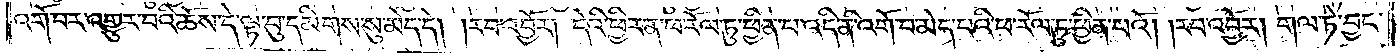འགོ་བར་འགྱུར་བའི་ཆོས་དེ་ལྟ་བུ་དམིགས་སུ་མེད་དོ། །རབ་འབྱོར། དེའི་ཕྱིར་ན་ཕ་རོལ་ཏུ་ཕྱིན་པ་འདི་ནི་འགོ་བ་མེད་པའི་ཕ་རོལ་ཏུ་ཕྱིན་པའོ། །རབ་འབྱོར། གལ་ཏེ་བྱང་
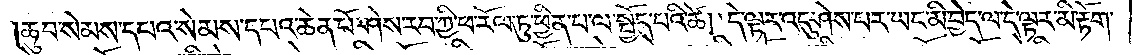ཆུབ་སེམས་དཔའ་སེམས་དཔའ་ཆེན་པོ་ཤེས་རབ་ཀྱི་ཕ་རོལ་ཏུ་ཕྱིན་པ་ལ་སྤྱོད་པའི་ཚེ། དེ་ལྟར་འདུ་ཤེས་པར་ཡང་མི་བྱེད་ལ་དེ་ལྟར་མི་རྟོག་
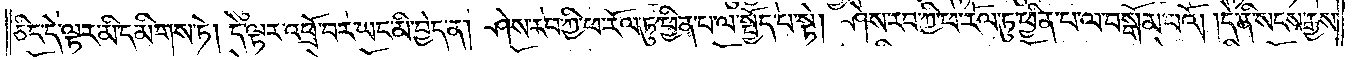ཅིང་དེ་ལྟར་མི་དམིགས་ཏེ། དེ་ལྟར་འཕྲོ་བར་ཡང་མི་བྱེད་ན། ཤེས་རབ་ཀྱི་ཕ་རོལ་ཏུ་ཕྱིན་པ་ལ་སྤྱོད་པ་སྟེ། ཤེས་རབ་ཀྱི་ཕ་རོལ་ཏུ་ཕྱིན་པ་ལ་བསྒོམ་པའོ། །དེ་ནི་སངས་རྒྱས་
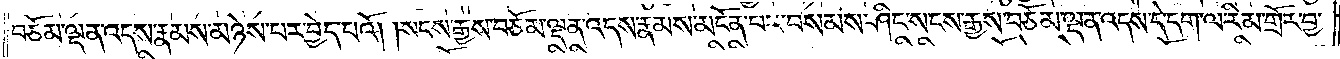བཅོམ་ལྡན་འདས་རྣམས་མཉེས་པར་བྱེད་པའོ། །སངས་རྒྱས་བཅོམ་ལྡན་འདས་རྣམས་མངོན་པར་བསམས་ཤིང་སངས་རྒྱས་བཅོམ་ལྡན་འདས་དེ་དག་ལ་རིམ་གྲོར་བྱ་
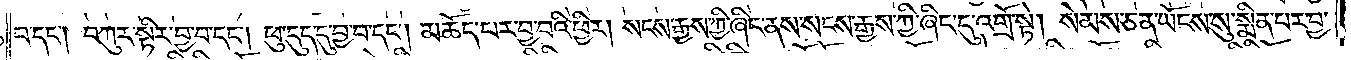བ་དང༌། བཀུར་སྟིར་བྱ་བ་དང༌། ཕུ་དུད་དུ་བྱ་བ་དང༌། མཆོད་པར་བྱ་བའི་ཕྱིར། སངས་རྒྱས་ཀྱི་ཞིང་ནས་སངས་རྒྱས་ཀྱི་ཞིང་དུ་འགྲོ་སྟེ། སེམས་ཅན་ཡོངས་སུ་སྨིན་པར་བྱ་
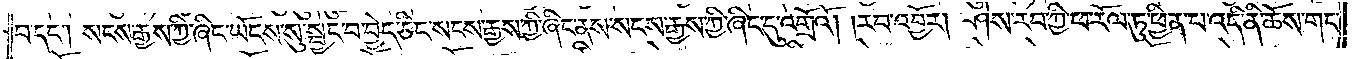བ་དང༌། སངས་རྒྱས་ཀྱི་ཞིང་ཡོངས་སུ་སྦྱང་བ་བྱེད་ཅིང་སངས་རྒྱས་ཀྱི་ཞིང་ནས་སངས་རྒྱས་ཀྱི་ཞིང་དུ་འགྲོའོ། །རབ་འབྱོར། ཤེས་རབ་ཀྱི་ཕ་རོལ་ཏུ་ཕྱིན་པ་འདི་ནི་ཆོས་གང་
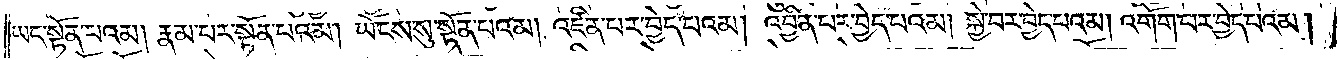ཡང་སྟོན་པའམ། རྣམ་པར་སྟོན་པའམ། ཡོངས་སུ་སྟོན་པའམ། འཛིན་པར་བྱེད་པའམ། འབྱིན་པར་བྱེད་པའམ། སྐྱེ་བར་བྱེད་པའམ། འགོག་པར་བྱེད་པའམ།
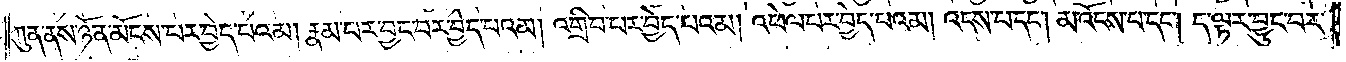ཀུན་ནས་ཉོན་མོངས་པར་བྱེད་པའམ། རྣམ་པར་བྱང་བར་བྱེད་པའམ། འགྲིབ་པར་བྱེད་པའམ། འཕེལ་བར་བྱེད་པའམ། འདས་པ་དང༌། མ་འོངས་པ་དང༌། ད་ལྟར་བྱུང་བར་
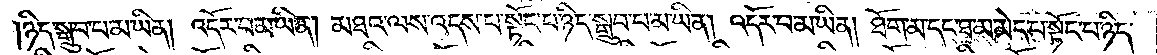ཉིད་སྒྲུབ་པ་མ་ཡིན། འདོར་བ་མ་ཡིན། མཐའ་ལས་འདས་པ་སྟོང་པ་ཉིད་སྒྲུབ་པ་མ་ཡིན། འདོར་བ་མ་ཡིན། ཐོག་མ་དང་ཐ་མ་མེད་པ་སྟོང་པ་ཉིད་
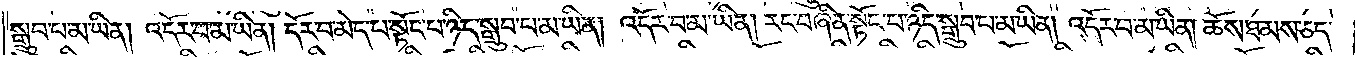སྒྲུབ་པ་མ་ཡིན། འདོར་བ་མ་ཡིན། དོར་བ་མེད་པ་སྟོང་པ་ཉིད་སྒྲུབ་པ་མ་ཡིན། འདོར་བ་མ་ཡིན། རང་བཞིན་སྟོང་པ་ཉིད་སྒྲུབ་པ་མ་ཡིན། འདོར་བ་མ་ཡིན། ཆོས་ཐམས་ཅད་
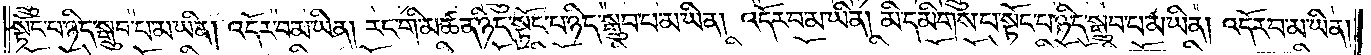སྟོང་པ་ཉིད་སྒྲུབ་པ་མ་ཡིན། འདོར་བ་མ་ཡིན། རང་གི་མཚན་ཉིད་སྟོང་པ་ཉིད་སྒྲུབ་པ་མ་ཡིན། འདོར་བ་མ་ཡིན། མི་དམིགས་པ་སྟོང་པ་ཉིད་སྒྲུབ་པ་མ་ཡིན། འདོར་བ་མ་ཡིན།
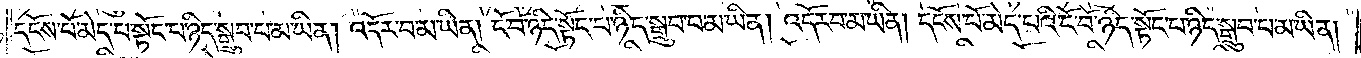དངོས་པོ་མེད་པ་སྟོང་པ་ཉིད་སྒྲུབ་པ་མ་ཡིན། འདོར་བ་མ་ཡིན། ངོ་བོ་ཉིད་སྟོང་པ་ཉིད་སྒྲུབ་པ་མ་ཡིན། འདོར་བ་མ་ཡིན། དངོས་པོ་མེད་པའི་ངོ་བོ་ཉིད་སྟོང་པ་ཉིད་སྒྲུབ་པ་མ་ཡིན།
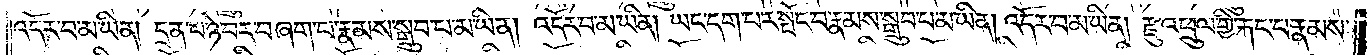འདོར་བ་མ་ཡིན། དྲན་པ་ཉེ་བར་བཞག་པ་རྣམས་སྒྲུབ་པ་མ་ཡིན། འདོར་བ་མ་ཡིན། ཡང་དག་པར་སྤོང་བ་རྣམས་སྒྲུབ་པ་མ་ཡིན། འདོར་བ་མ་ཡིན། རྫུ་འཕྲུལ་གྱི་རྐང་པ་རྣམས་
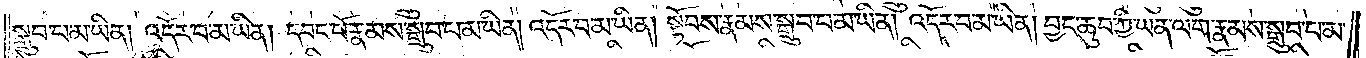སྒྲུབ་པ་མ་ཡིན། འདོར་བ་མ་ཡིན། དབང་པོ་རྣམས་སྒྲུབ་པ་མ་ཡིན། འདོར་བ་མ་ཡིན། སྟོབས་རྣམས་སྒྲུབ་པ་མ་ཡིན། འདོར་བ་མ་ཡིན། བྱང་ཆུབ་ཀྱི་ཡན་ལག་རྣམས་སྒྲུབ་པ་མ་
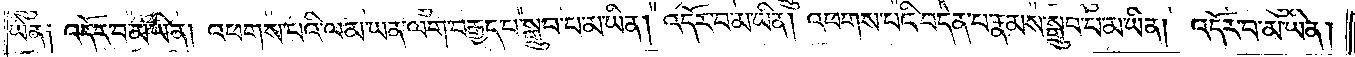ཡིན༑ འདོར་བ་མ་ཡིན། འཕགས་པའི་ལམ་ཡན་ལག་བརྒྱད་པ་སྒྲུབ་པ་མ་ཡིན། འདོར་བ་མ་ཡིན། འཕགས་པའི་བདེན་པ་རྣམས་སྒྲུབ་པ་མ་ཡིན། འདོར་བ་མ་ཡིན།
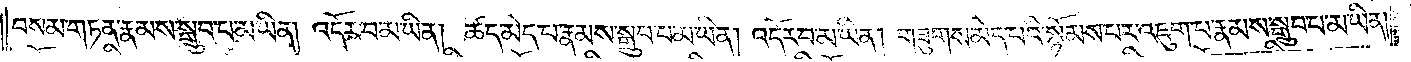བསམ་གཏན་རྣམས་སྒྲུབ་པ་མ་ཡིན། འདོར་བ་མ་ཡིན། ཚད་མེད་པ་རྣམས་སྒྲུབ་པ་མ་ཡིན། འདོར་བ་མ་ཡིན། གཟུགས་མེད་པའི་སྙོམས་པར་འཇུག་པ་རྣམས་སྒྲུབ་པ་མ་ཡིན།
